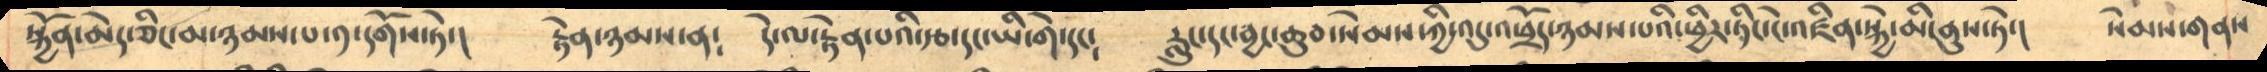སྐྱོན་མེད་ཅིང་མ་ཉམས་པ་༡་དགོས་ཏེ་།    རྟེན་ཉམས་ན༴   དེ་ལ་རྟེན་པའི་རྩ་དང་ཡི་གེ་དང༴    རླུང་དང་བྱང་ཆུབ་སེམས་ཀྱི་འདུ་འཕྲོད་ཉམས་པའི་ཕྱིར་ཏིང་ངེ་འཛིན་སྐྱེ་མི་ནུས་ཏེ་།   སེམས་གནས
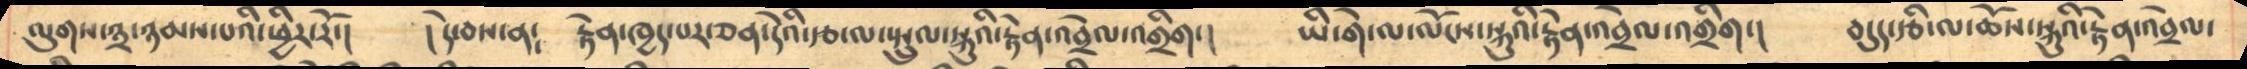ལུགས་༣་ཉམས་པའི་ཕྱིར་རོ་།    །དེ་བས་ན༴   རྟེན་ཁྱད་པར་ཅན་དེའི་རྩ་ལ་སྤྲུལ་སྐུའི་རྟེན་འབྲེལ་འགྲིག་།    ཡི་གེ་ལ་ལོངས་སྐུའི་རྟེན་འབྲེལ་འགྲིག་།       བདུད་རྩི་ལ་ཆོས་སྐུའི་རྟེན་འབྲེལ་
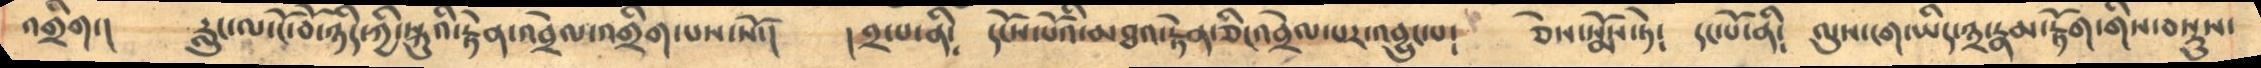འགྲིག་།    རླུང་ལ་ངོ་བོ་ཉིད་ཀྱི་སྐུའི་རྟེན་འབྲེལ་འགྲིག་པས་སོ་།     །༢་པ་ནི༴   དངོས་པོའི་མཐའ་རྟེན་ཅིང་འབྲེལ་པར་འབྱུང་པ༴   ཅེས་སྨོས་ཏེ༴  དང་པོ་ནི༴   ལུས་ངག་ཡིད་༣་རྣམ་རྟོག་གིས་བསྡུས་
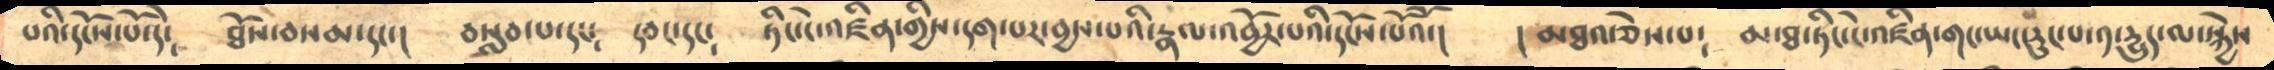པའི་དངོས་པོ་དེ༴   ཐོས་བསམ་དང་།   བསླབ་པ་དང༴   དབང་དང༴   ཏིང་ངེ་འཛིན་གྱིས་དག་པར་བྱས་པའི་རྣལ་འབྱོར་པའི་དངོས་པོའོ་།   །མཐའ་ཅེས་པ༴  མ་ཐ་ཏིང་ངེ་འཛིན་གང་ཡང་རུང་པ་༡་དྱུད་ལ་སྐྱེས
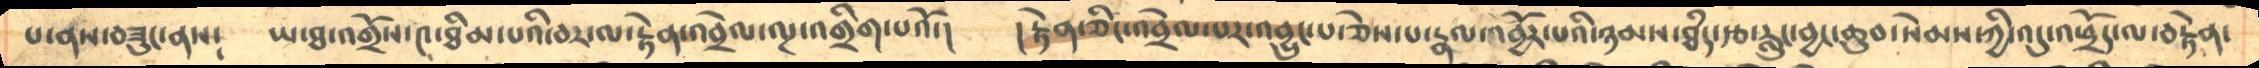པ་ནས་བཟུང་ནས༴    ཡ་ཐ་འགྲོས་༤་ཐིམ་པའི་བར་ལ་རྟེན་འབྲེལ་ལྔ་འགྲིག་པའོ་།   །རྟེན་ཅིང་འབྲེལ་པར་འབྱུང་པ་ཅེས་པ་རྣལ་འབྱོར་པའི་ཉམས་ཐཾད་རྩ་རླུང་བྱང་ཆུབ་སེམས་ཀྱི་འདུ་འཕྲོད་ལ་བརྟེན་
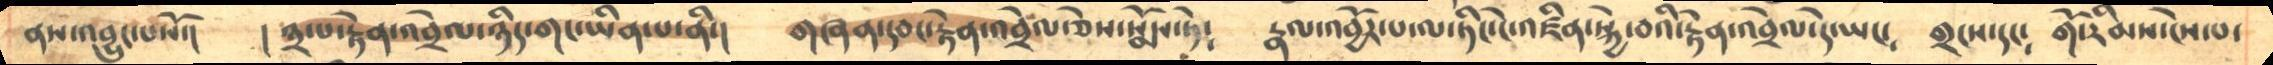ནས་འབྱུང་པསོ་།    །༣་པ་རྟེན་འབྲེལ་ཉིད་གང་ཡིན་པ་ནི་།   གཞན་དབང་རྟེན་འབྲེལ་ཅེས་སྨོས་ཏེ༴    རྣལ་འབྱོར་པ་ལ་ཏིང་ངེ་འཛིན་སྐྱེ་བའི་རྟེན་འབྲེལ་དེ་ཡང༴   གྲངས་དང༴  གོ་རིམས་ངེས་པ་
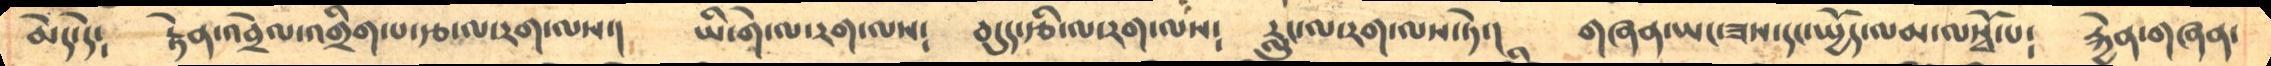མེད་དེ༴    རྟེན་འབྲེལ་འགྲིག་པ་རྩ་ལ་རག་ལས་།    ཡི་གེ་ལ་རག་ལས༴   བདུད་རྩི་ལ་རག་ལས༴   རླུང་ལ་རག་ལས་ཏེ་།   གཞན་ཡང་ཟས་དང་སྤྱོད་ལམ་ལསྭོ་པ༴   རྐྱེན་གཞན་
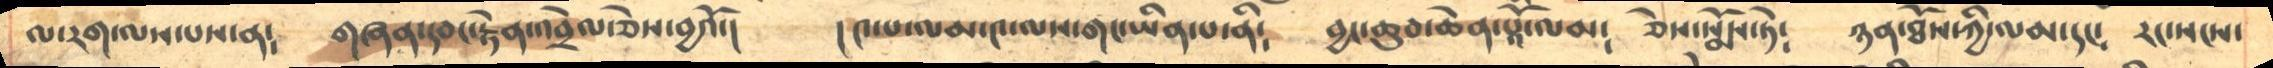ལ་རག་ལས་པས་ན༴    གཞན་དབང་རྟེན་འབྲེལ་ཅེས་བྱའོ་།    །༤་པ་ལམ་༤་ལས་གང་ཡིན་པ་ནི༴    བྱང་ཆུབ་ཆེན་པོའི་ལམ༴  ཅེས་སྨོས་ཏེ༴   ཉན་ཐོས་ཀྱི་ལམ་དང༴   རང་སངས་
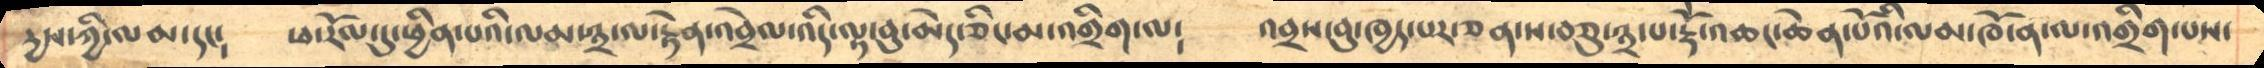དྱས་ཀྱི་ལམ་དང༴    ཕ་རོལ་དུ་ཕྱིན་པའི་ལམ་༣་ལ་རྟེན་འབྲེལ་འདི་ལྟ་བུ་མེད་ཅིང་མ་འགྲིག་ལ༴   འབྲས་བུ་ཁྱད་པར་ཅན་ས་བཅུ་༣་པ་རྡོེ་འཆང་ཆེན་པོའི་ལམ་ཁོ་ན་ལ་འགྲིག་པས་
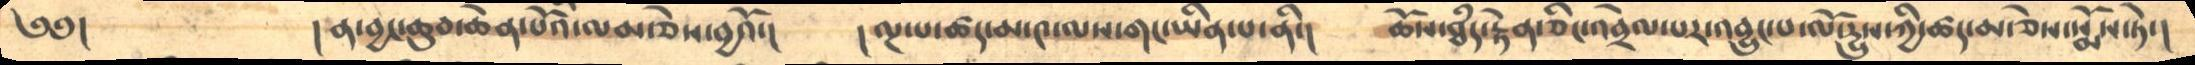༄༅།          ། ན་བྱང་ཆུབ་ཆེན་པོའི་ལམ་ཅེས་བྱའོ་།    ། ལྔ་པ་ཚད་མ་༤་ལས་གང་ཡིན་པ་ནི་།   ཆོས་ཐཾད་རྟེན་ཅིང་འབྲེལ་པར་འབྱུང་པ་ལོ་དྱུས་ཀྱི་ཚད་མ་ཅེས་སྨོས་ཏེ་།
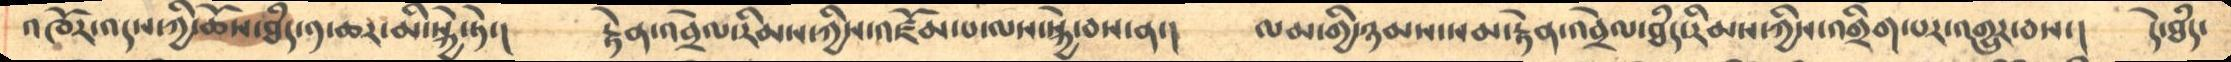འཁོར་འདས་ཀྱི་ཆོས་ཐཾད་༡་ཆར་མི་སྐྱེ་ཏེ་།     རྟེན་འབྲེལ་རིམས་ཀྱིས་འཛོམ་པ་ལས་སྐྱེ་བས་ན་།     ལམ་གྱི་ཉམས་སམ་རྟེན་འབྲེལ་ཐཾད་རིམས་ཀྱིས་འགྲིག་པར་འགྱུར་བས་།  དེ་ཐཾད་
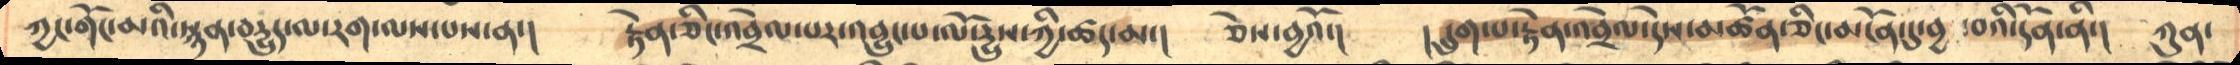ཀྱང་གོང་མའི་སྙན་བདྱུད་ལ་རག་ལས་པས་ན་།    རྟེན་ཅིང་འབྲེལ་པར་འབྱུང་པ་ལོ་དྱུས་ཀྱི་ཚད་མ་།  ཅེས་བྱའོ་།   ། དྲུག་པ་རྟེན་འབྲེལ་དེས་མཚོན་ཅིང་མངོན་དུ་བྱ་བའི་དོན་ནི་།   ཀུན་
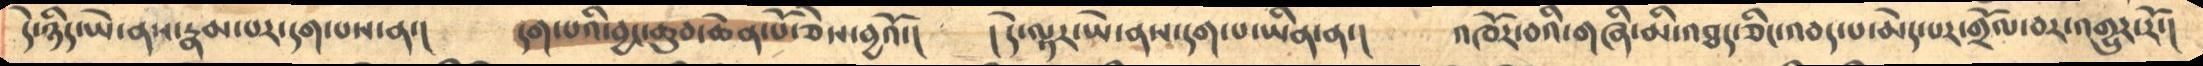དེ་ཉིད་ཡེ་ནས་རྣམ་པར་དག་པས་ན་།    དག་པའི་བྱང་ཆུབ་ཆེན་པོ་ཅེས་བྱའོ་།    ། དེ་ལྟར་ཡེ་ནས་དག་པ་ཡིན་ན་།   འཁོར་བའི་གཞི་མི་འཐད་ཅིང་འབད་པ་མེད་པར་གྲོལ་བར་འགྱུར་རོ་།
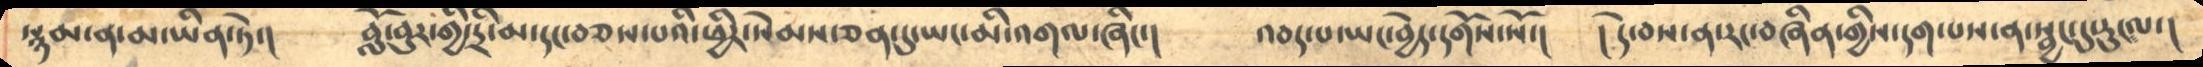སྙམ་ན་མ་ཡིན་ཏེ་།    བློ་བུར་གྱི་དྲི་མ་དང་བཅས་པའི་ཕྱིར་སེམས་ཅན་དུ་ཡང་མི་འགལ་ཞིང་།    འབད་པ་ཡང་བྱེད་དགོས་སོ་།    ། དེ་བས་ན་རང་བཞིན་གྱིས་དག་པས་ན་སྦྱང་དུ་རུངལ་།
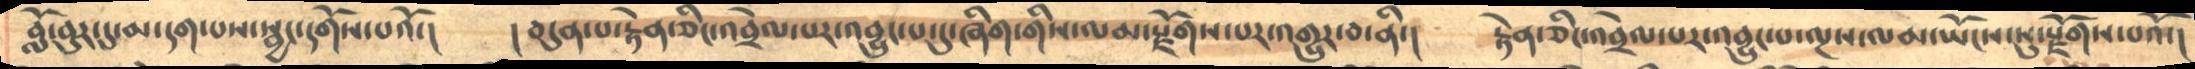བློ་བུར་དུ་མ་དག་པས་སྦྱང་དགོས་པའོ་།    ། བདུན་པ་རྟེན་ཅིང་འབྲེལ་པར་འབྱུང་པ་དུ་ཞིག་གིས་ལམ་རྫོགས་པར་འགྱུར་བ་ནི་།   རྟེན་ཅིང་འབྲེལ་པར་འབྱུང་པ་ལྔས་ལམ་ཡོངས་སུ་རྫོགས་པའོ་།
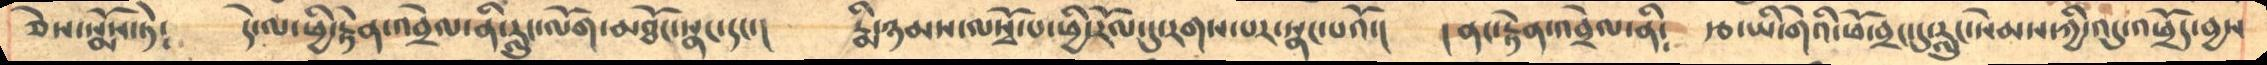ཅེས་སྨོས་ཏེ༴     དེ་ལ་ཕྱི་རྟེན་འབྲེལ་ནི་རླུང་ལོག་མཐོང་སྣང་དང་།    རྨི་ཉམས་ལསྭོ་པ་ཕྱི་རོལ་དུ་རགས་པར་སྣང་པའོ་།   །ནང་རྟེན་འབྲེལ་ནི༴   རྩ་ཡི་གེའི་ཕོ་བྲངདུ་རླུང་སེམས་ཀྱི་འདུ་འཕྲོད་བྱས
